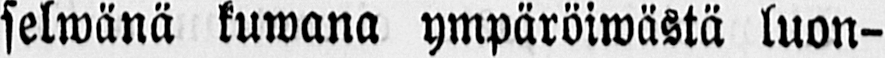selwänä kuwana ympäröiwästä luon-
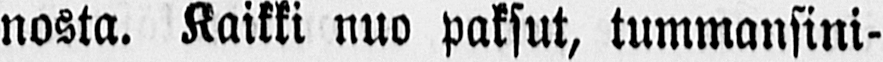nosta. Kaikki nuo paksut, tummansini-
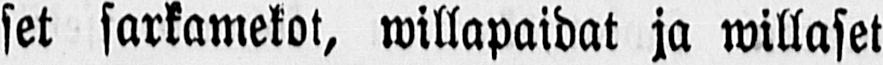set sarkamekot, willapaidat ja willaset
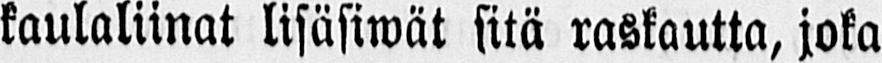kaulaliinat lisäsiwät sitä raskautta, joka
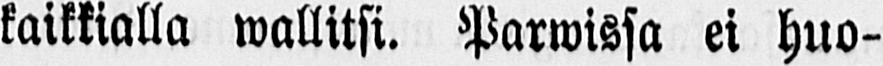kaikkialla wallitsi. Parwissa ei huo-
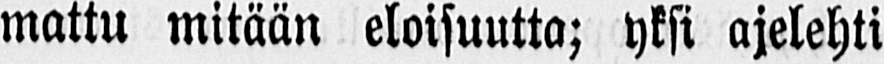mattu mitään eloisuutta; yksi ajelehti
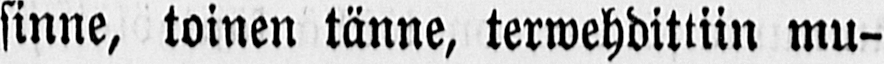sinne, toinen tänne, terwehdittiin mu-
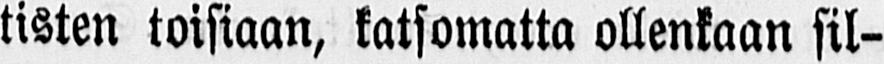tisten toisiaan, katsomatta ollenkaan sil-
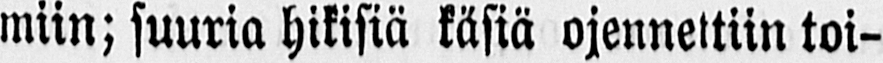miin; suuria hikisiä käsiä ojennettiin toi-
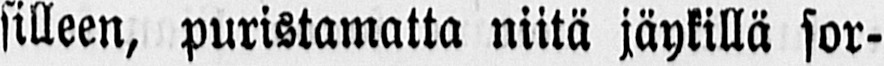silleen, puristamatta niitä jäykillä sor-
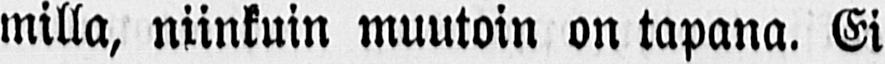milla, niinkuin muutoin on tapana. Ei
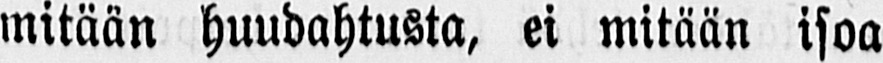mitään huudahtusta, ei mitään isoa
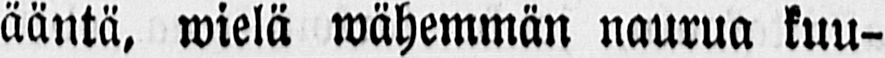ääntä, wielä wähemmän naurua kuu-
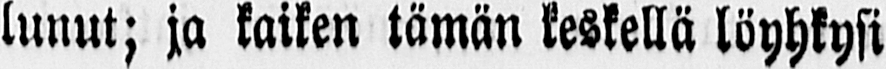lunut; ja kaiken tämän keskellä löyhkysi
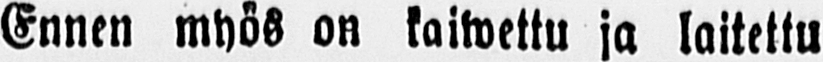Ennen myös on kaiwettu ja laitettu
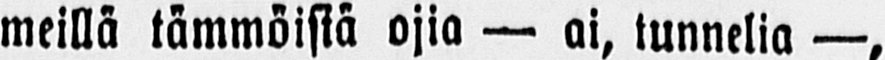meillä tämmöisiä ojia — ai, tunnelia —,
